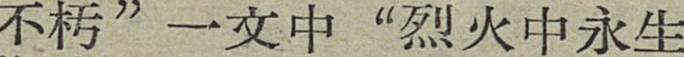不朽”一文中“烈火中永生
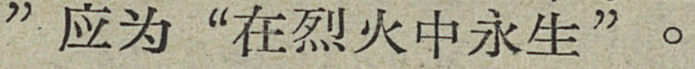”应为“在烈火中永生”。
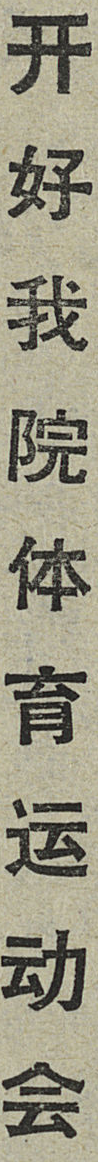开好我院体育运动会
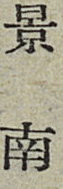景南
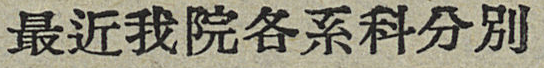最近我院各系科分别
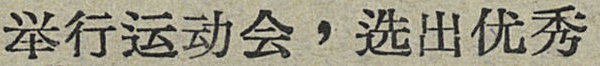举行运动会，选出优秀
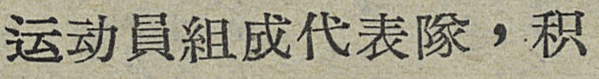运动員組成代表隊，积
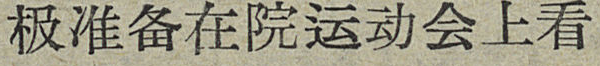极准备在院运动会上看
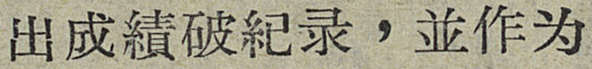出成績破紀录，並作为
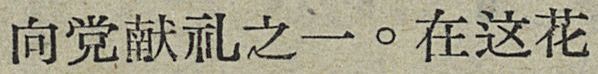向党献礼之一。在这花
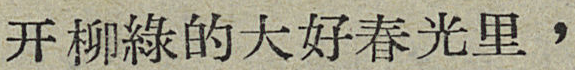开柳綠的打好春光里，
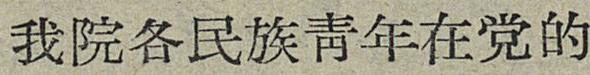我院各民族靑年在党的
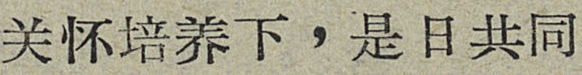关怀培养下，是日共同
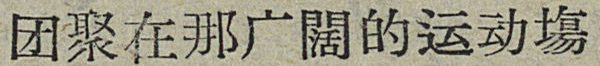团聚在那广闊的运动塲
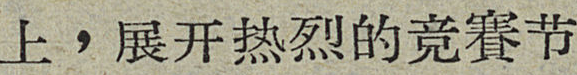上，展开热烈的竞賽节
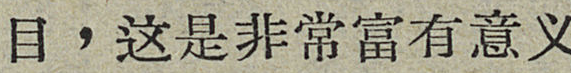目，这是非常富有意义
